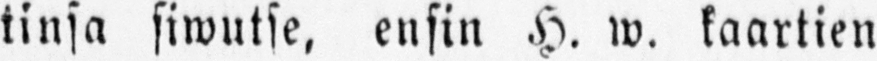tinsa siwutse. ensin H. w. kaartien
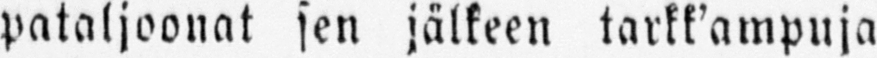pataljoonat sen jälkeen tarkk'ampuja
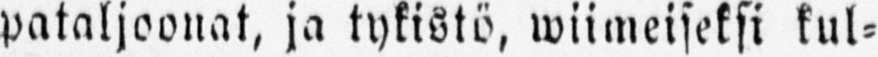pataljoonat, ja tykistö, wiimeisetsi kul-
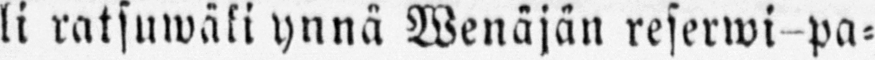li ratsuwäki ynnä Wenäjän reserwi-pa-
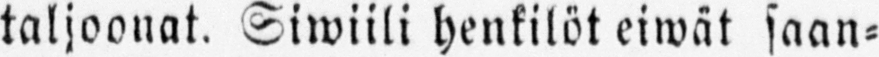taljoonat. Siwiili henkilöt eiwät saan-
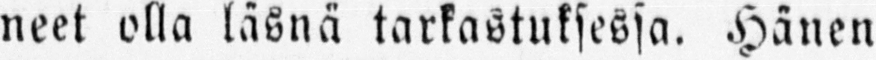neet olla läsnä tarkastuksessa. Hänen
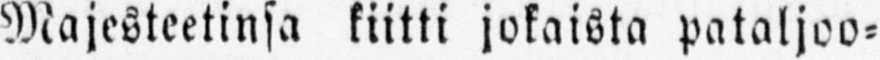Majesteetinsa kiitti jokaista pataljoo-
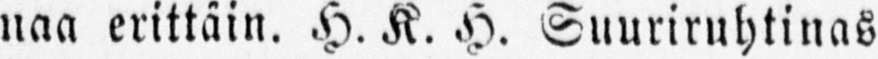naa erittäin. H. K. H. Suuriruhtinas
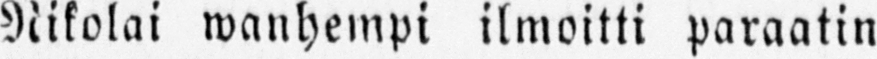Nikolai wanhempi ilmoitti paraatin
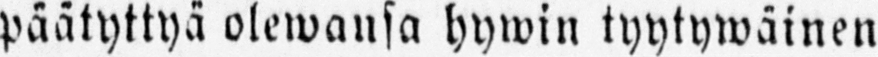päätyttyä olewansa hywin tyytywäinen
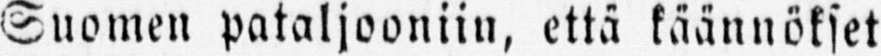Suomen pataljooniin, että käännökset
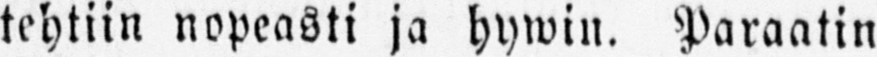tehtiin nopeasti ja hywin. Paraatin
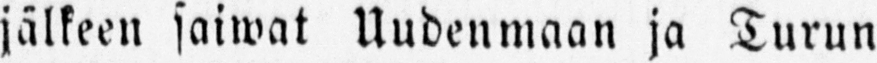jälkeen saiwat Uudenmaan ja Turun
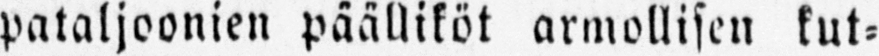pataljoonien päälliköt armollisen kut-
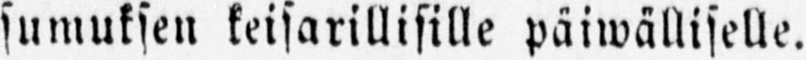sumuksen keisarillisille päiwälliselle.
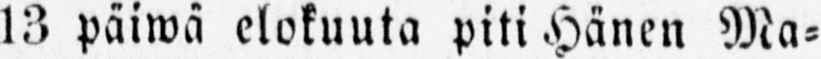13 päiwä elokuuta piti Hänen Ma-
